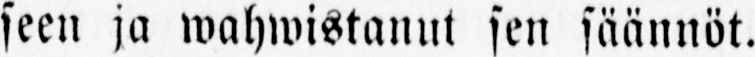seen ja mahwistanut sen säännöt.
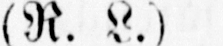(R. L.)
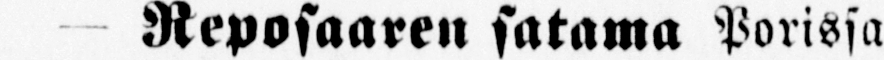— Reposaaren satama Porissa
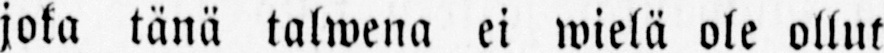joka tänä talwena ei wielä ole ollut
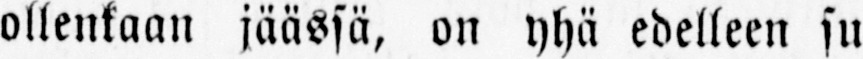ollenkaan jäässä, on yhä edelleen su-
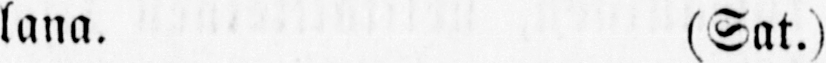lana. (Sat.)
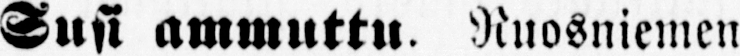— Susi ammuttu. Ruosniemen
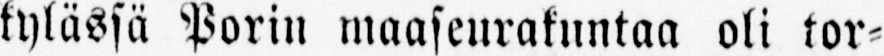kylässä Porin maaseurakuntaa oli tor-
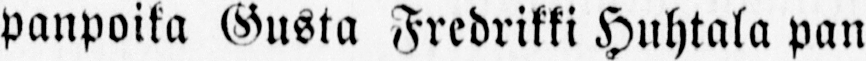panpoika Gusta Fredrikki Huhtala pan-
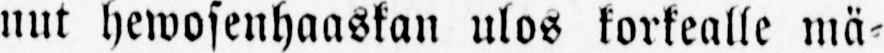nut hewosenhaaskan ulos korkealle mä-
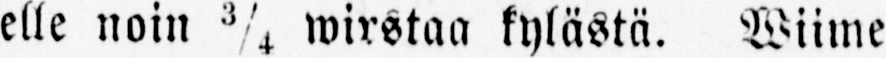elle noin ¾ wirstaa kylästä. Wiime
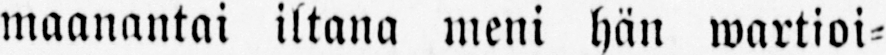maanantai iltana meni hän wartioi-
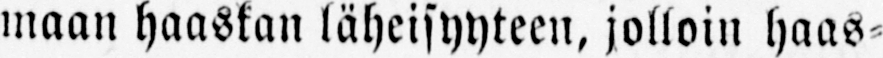maan haaskan läheisyyteen, jolloin haas-
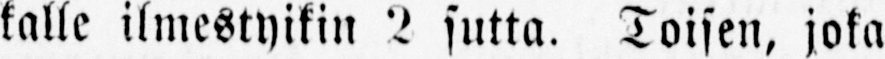kalle ilmestyikin 2 sutta. Toisen, joka
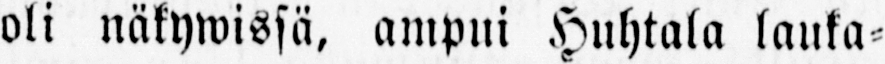oli näkywissä, ampui Huhtala lauka-
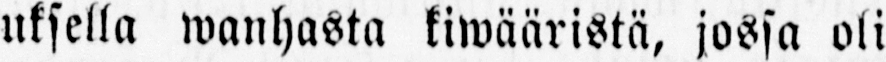uksella wanhasta kiwääristä, jossa oli
